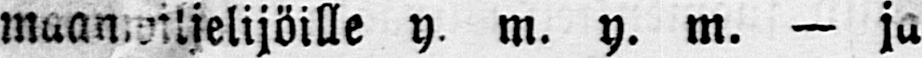maanwiljelijöille y. m. y. m. — ja
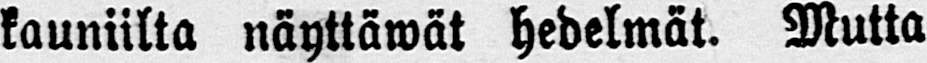kauniilta näyttäwät hedelmät. Mutta
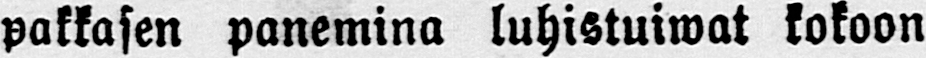pakkasen panemina luhistuiwat kokoon
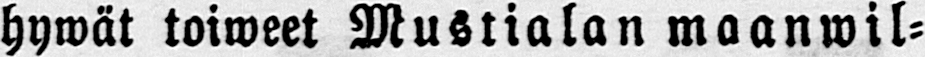hywät toimeet Mustialan maanwil-
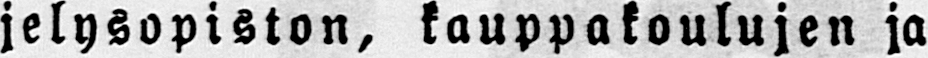jelysopiston, kauppakoulujen ja
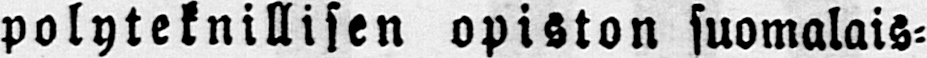polyteknillisen opiston suomalais-
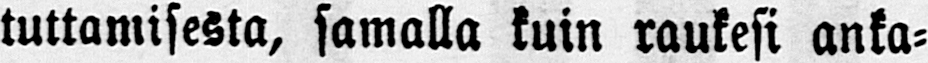tuttamisesta, samalla kuin raukesi anka-
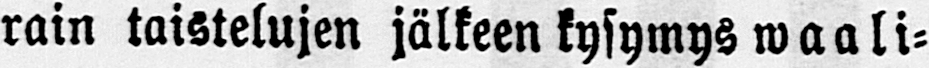rain taistelujen jälkeen kysymys waali-
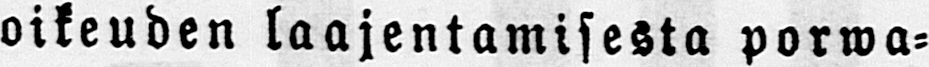oikeuden laajentamisesta porwa-
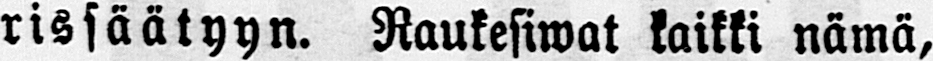ris säätyyn. Raukesiwat kaikki nämä,
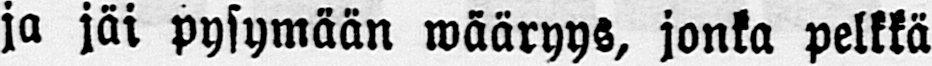ja jäi pysymään wääryys, jonka pelkkä
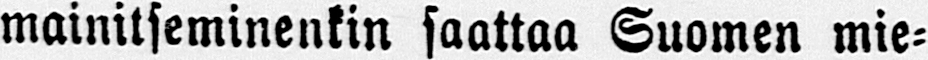mainitseminenkin saattaa Suomen mie-
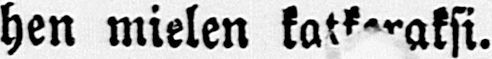hen mielen katkaraksi.
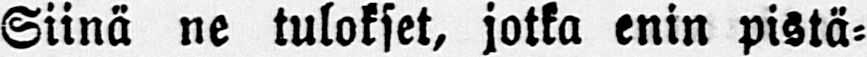Siinä ne tulokset, jotka enin pistä-
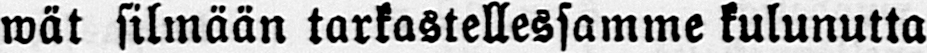wät silmään tarkastellessamme kulunutta
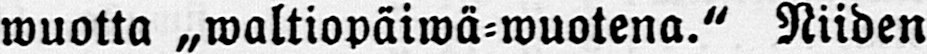wuotta „waltiopäiwä-wuotena." Niiden
